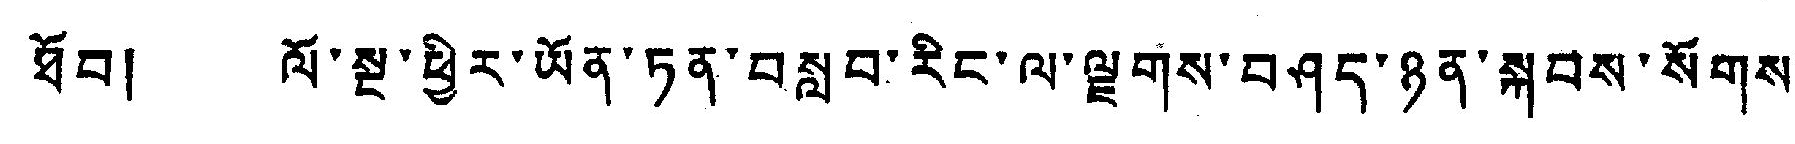ཐོབ། ལོ་སྔ་ཕྱིར་ཡོན་ཏན་བསླབ་རིང་ལ་ལྗགས་བཤད་ཉན་སྐབས་སོགས་་
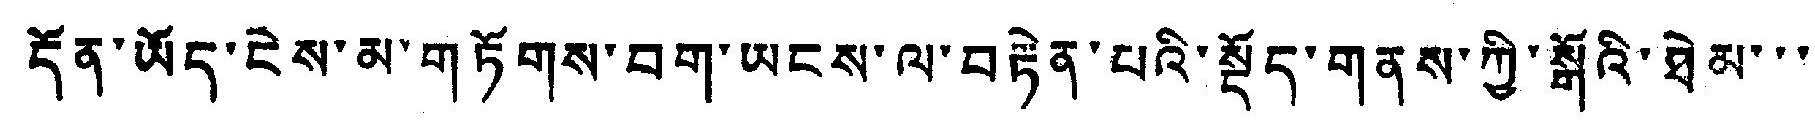དོན་ཡོད་ངེས་མ་གཏོགས་བག་ཡངས་ལ་བརྟེན་པའི་སྡོད་གནས་ཀྱི་སྒྲོའི་ཐེམ་་་
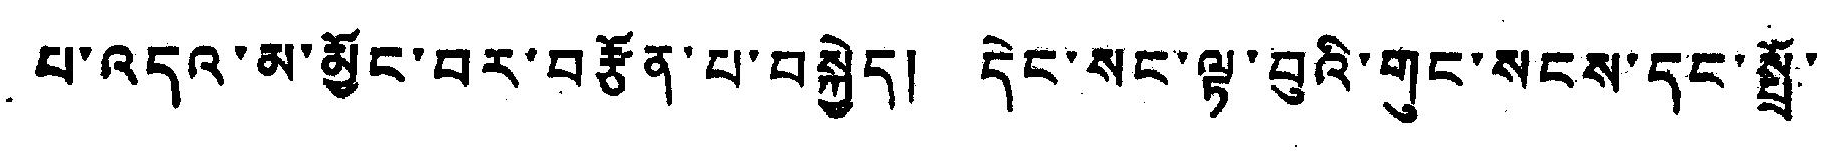པ་འདའ་མ་མྱོང་བར་བརྩོན་པ་བསྐྱེད། དེང་སང་ལྟ་བུའི་གུང་སངས་དང་སྤྲོ་
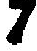7
